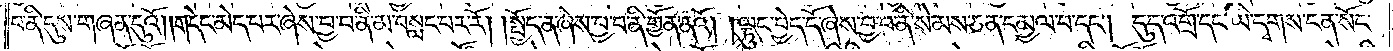བ་ནི་དུས་གཞན་དུའོ། །གདེང་མེད་པར་ཞེས་བྱ་བ་ནི་མ་བསླང་པར་རོ། །སྤྱོད་ན་ཞེས་བྱ་བ་ནི་གྱོན་ནའོ། །ལྟུང་བྱེད་དོ་ཞེས་བྱ་བ་ནི་སེམས་ཅན་དམྱལ་བ་དང༌། དུད་འགྲོ་དང་ཡི་དྭགས་ངན་སོང་
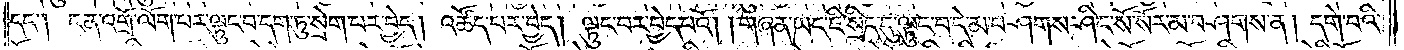དང༌། ངན་འགྲོ་ལོག་པར་ལྟུང་བ་དག་ཏུ་སྲེག་པར་བྱེད། འཚོད་པར་བྱེད། ལྟུང་བར་བྱེད་པའོ། །གཞན་ཡང་ཇི་སྲིད་དུ་ལྟུང་བ་དེ་མ་བཤགས་ཤིང་སོ་སོར་མ་བཤགས་ན། དགེ་བའི་
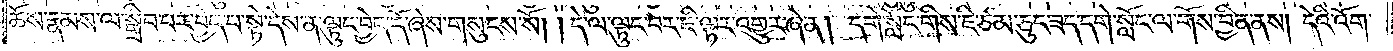ཆོས་རྣམས་ལ་སྒྲིབ་པར་བྱེད་པ་སྟེ་དེས་ན་ལྟུང་བྱེད་དོ་ཞེས་གསུངས་སོ། །དེ་ལ་ལྟུང་བར་ཇི་ལྟར་འགྱུར་ཞེ་ན། དགེ་སློང་གིས་ཇི་ཙམ་ཅུང་ཟད་དགེ་སློང་ལ་གོས་བྱིན་ནས། དེའི་འོག་
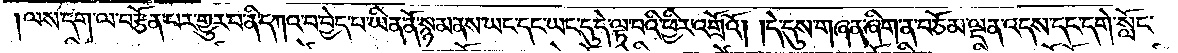ལས་དག་ལ་བརྩོན་པར་གྱུར་པ་ནི་དཀའ་བ་བྱེད་པ་ཡིན་ནོ་སྙམ་ནས་ཡང་དང་ཡང་དུ་དེ་ལྟ་བའི་ཕྱིར་འགྲོའོ། །དེ་དུས་གཞན་ཞིག་ན་བཅོམ་ལྡན་འདས་དང་དགེ་སློང་
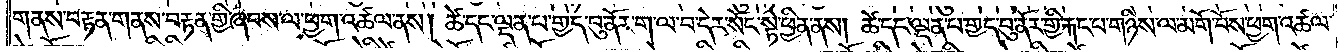གནས་བརྟན་གནས་བརྟན་གྱི་ཞབས་ལ་ཕྱག་འཚལ་ནས། ཚེ་དང་ལྡན་པ་གྱད་བུ་ནོར་ག་ལ་བ་དེར་སོང་སྟེ་ཕྱིན་ནས། ཚེ་དང་ལྡན་པ་གྱད་བུ་ནོར་གྱི་རྐང་པ་གཉིས་ལ་མགོ་བོས་ཕྱག་འཚལ་
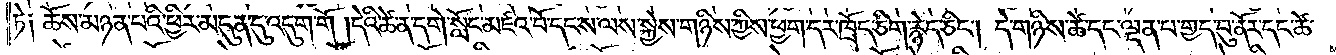ཏེ། ཆོས་མཉན་པའི་ཕྱིར་མདུན་དུ་འདུག་གོ །དེའི་ཚེ་ན་དགེ་སློང་མཛའ་བོ་དང་ས་ལས་སྐྱེས་གཉིས་ཀྱིས་ཕྱག་དར་ཁྲོད་ཅིག་རྙེད་ཅིང༌། དེ་གཉིས་ཚེ་དང་ལྡན་པ་གྱད་བུ་ནོར་དང་ཚེ་
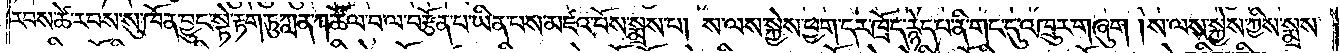རབས་ཚེ་རབས་སུ་ཁོ་ན་བྱུང་སྟེ་རྟག་ཏུ་ཀླན་ཀ་ཚོལ་བ་ལ་བརྩོན་པ་ཡིན་པས་མཛའ་བོས་སྨྲས་པ། ས་ལས་སྐྱེས་ཕྱག་དར་ཁྲོད་རྙེད་པ་ནི་གང་དུ་འཁྲུར་གཞུག །ས་ལས་སྐྱེས་ཀྱིས་སྨྲས་
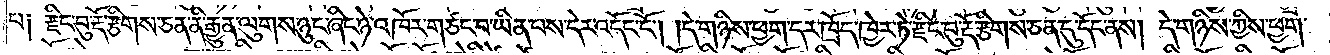པ༑ རྫིང་བུ་རྡོ་རྩིགས་ཅན་ནི་རྒྱུན་ལུགས་ཉུང་ཞིང་ཉེ་འཁོར་གཙང་བ་ཡིན་པས་དེར་འདོང་ངོ༌། །དེ་གཉིས་ཕྱག་དར་ཁྲོད་ཁྱེར་ཏེ་རྫིང་བུ་རྡོ་རྩིགས་ཅན་དུ་དོང་ནས། དེ་གཉིས་ཀྱིས་ཕྱག་
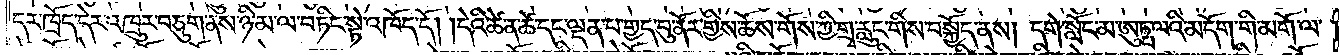དུར་ཁྲོད་དེར་འཁྲུར་བཅུག་ནས་ཉི་མ་ལ་བཏིང་སྟེ་འཁོད་དོ། །དེའི་ཚེ་ན་ཚེ་དང་ལྡན་པ་གྱད་བུ་ནོར་གྱིས་ཆོས་གོས་ཀྱི་གྲྭ་རླུང་གིས་བསྐྱོད་ནས། དགེ་སློང་མ་ཨུཏྤ་ལའི་མདོག་གི་མགོ་ལ་
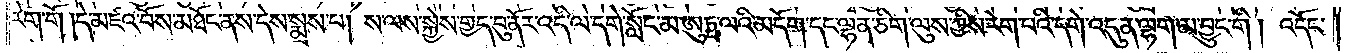རེག་གོ །དེ་མཛའ་བོས་མཐོང་ནས་དེས་སྨྲས་པ། ས་ལས་སྐྱེས་གྱད་བུ་ནོར་འདི་ལ་དགེ་སློང་མ་ཨུཏྤ་ལའི་མདོག་དང་ལྷན་ཅིག་ལུས་ཀྱིས་རེག་པའི་དགེ་འདུན་ལྷག་མ་བྱུང་གི །འདོང་
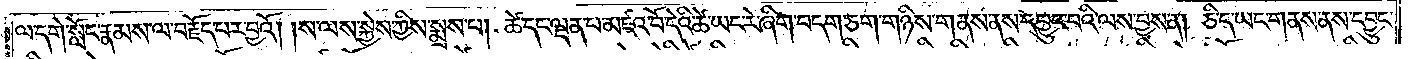ལ་དགེ་སློང་རྣམས་ལ་བརྗོད་པར་བྱའོ། །ས་ལས་སྐྱེས་ཀྱིས་སྨྲས་པ། ཚེ་དང་ལྡན་པ་མཛའ་བོ་དེའི་ཚེ་ཡང་རེ་ཞིག་བདག་ཅག་གཉིས་གནས་ནས་དབྱུང་བའི་ལས་བྱས་ན། ཅི་ད་ཡང་གནས་ནས་དབྱུང་
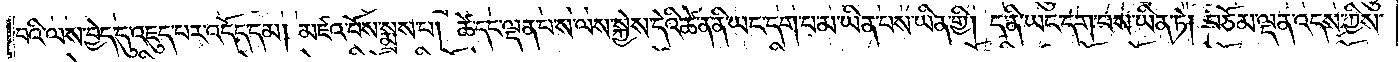བའི་ལས་བྱེད་དུ་འཇུད་པར་འདོད་དམ། མཛའ་བོས་སྨྲས་པ། ཚེ་དང་ལྡན་པ་ས་ལས་སྐྱེས་དེའི་ཚེ་ན་ནི་ཡང་དག་པ་མ་ཡིན་པས་ཡིན་གྱི། ད་ནི་ཡང་དག་པས་ཡིན་ཏེ། བཅོམ་ལྡན་འདས་ཀྱིས་
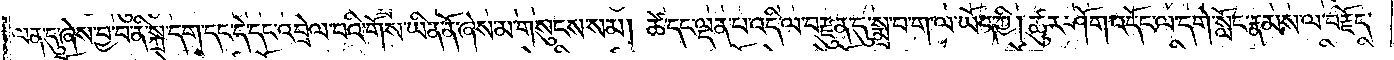ལན་དུ་ཞེས་བྱ་བ་ནི་སྐྲ་དག་དང་དེ་དང་འབྲེལ་བའི་གོས་ཡིན་ནོ་ཞེས་མ་གསུངས་སམ། ཚེ་དང་ལྡན་པ་འདི་ལ་བརྫུན་དུ་སྨྲ་བ་ག་ལ་ཡོད་ཀྱི། ཚུར་ཤོག་འདོང་ལ་དགེ་སློང་རྣམས་ལ་བརྗོད་
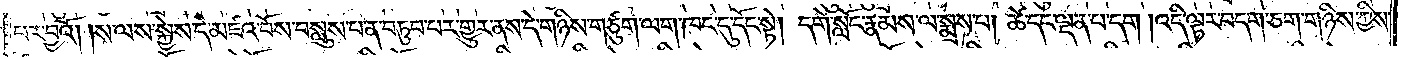པར་བྱའོ། །ས་ལས་སྐྱེས་དེ་མཛའ་བོས་བསླུས་པ་ན་བཏུབ་པར་གྱུར་ནས་དེ་གཉིས་གཙུག་ལག་ཁང་དུ་དོང་སྟེ། དགེ་སློང་རྣམས་ལ་སྨྲས་པ། ཚེ་དང་ལྡན་པ་དག །འདི་ལྟར་བདག་ཅག་གཉིས་ཀྱིས་
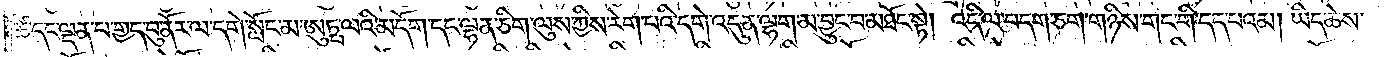ཚེ་དང་ལྡན་པ་གྱད་བུ་ནོར་ལ་དགེ་སློང་མ་ཨུཏྤ་ལའི་མདོག་དང་ལྷན་ཅིག་ལུས་ཀྱིས་རེག་པའི་དགེ་འདུན་ལྷག་མ་བྱུང་བ་མཐོང་སྟེ། འདི་ལ་བདག་ཅག་གཉིས་གང་གི་དད་པའམ། ཡིད་ཆེས་
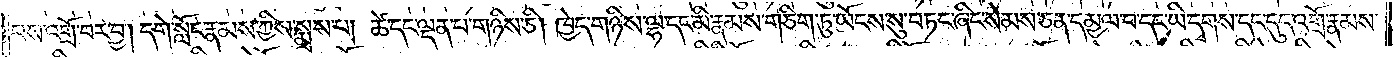པས་འགྲོ་བར་བྱ། དགེ་སློང་རྣམས་ཀྱིས་སྨྲས་པ། ཚེ་དང་ལྡན་པ་གཉིས་ཅི། ཁྱེད་གཉིས་ལྷ་དང་མི་རྣམས་གཅིག་ཏུ་ཡོངས་སུ་བཏང་ཞིང་སེམས་ཅན་དམྱལ་བ་དང་ཡི་དྭགས་དང་དུད་འགྲོ་རྣམས་
